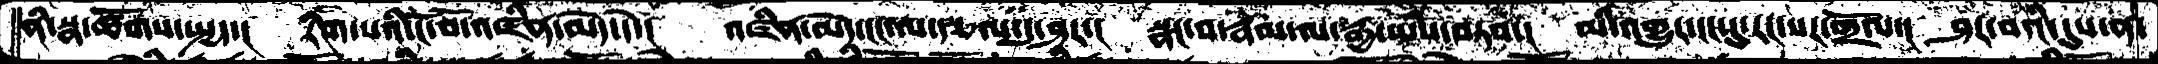ནི་སྣ་ཚོགས་སྤྱད་།  རིག་པའི་ངོ་བོ་འཛིན་མེད་དེ་།  འཛིན་མེད་ངང་ལ་རྩལ་དུ་ཤར་།  སྣང་བ་རྣམ་ལ་རྒྱ་ཡིས་བཏབ་།  མི་འགྱུར་ངང་དུ་རང་སར་གྲོལ་།  ཤར་བའི་དུས་ན་
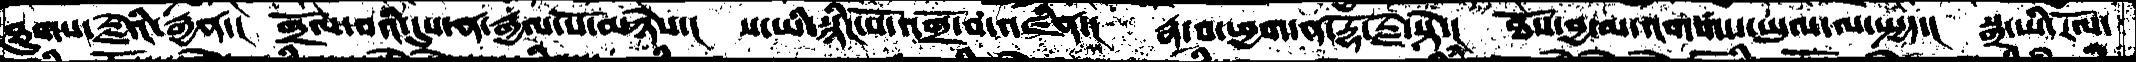ཐུགས་རྗེའི་རྒྱན་།  གྲོལ་བའི་དུས་ན་རྒྱལ་པོ་མཉེས་།  ས་ཡི་སྙིང་བོ་འགྲོ་བ་འཛིན་།  རྣ་བ་ཕྱག་ན་རྡོ་རྗེ་སྟེ་།  ཐོས་བྱ་མ་འགགས་ཡུལ་ལ་སྤྱད་།  སྒྲ་ཡི་རོལ་
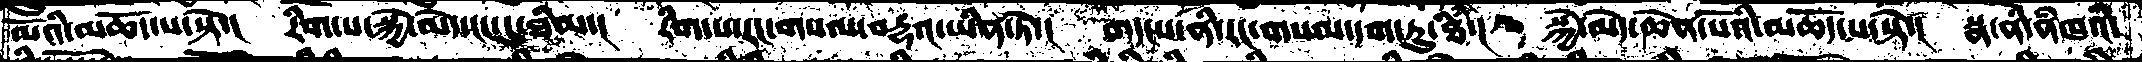མོའི་མཆོད་པ་སྟེ་།  རིག་པ་སྐྱེ་མེད་ངང་དུ་ཐིམ་།  རིག་པ་རང་གསལ་བདྷའ་ཡིན་ཏེ་།  གདངས་ནི་རང་གསལ་དག་ཏུ་ཐིཾ་།   སྐྱེ་མེད་ཆེན་པོའི་མཆོད་པ་སྟེ་།  སྣ་ནི་ནཾཁའི་
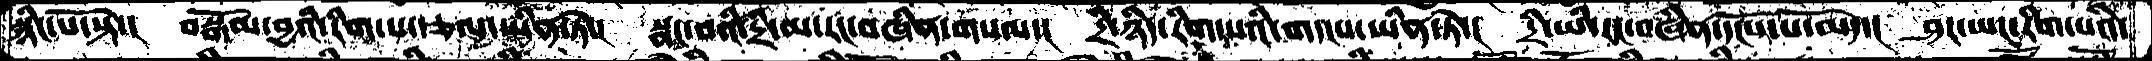སྙིང་པོ་སྟེ་།   བསྒོམ་བྱའི་རིག་པ་རྩལ་ཡིན་ཏེ་།   སྣང་བའི་དྲི་མ་རང་བཞིན་གསལ་།  དྲི་ཉིད་རིག་པའི་གདངས་ཡིན་ཏེ་།  དྲི་ཡི་རང་བཞིན་དངོས་པོ་མེད་།  ཤར་ཡང་རིག་པའི་
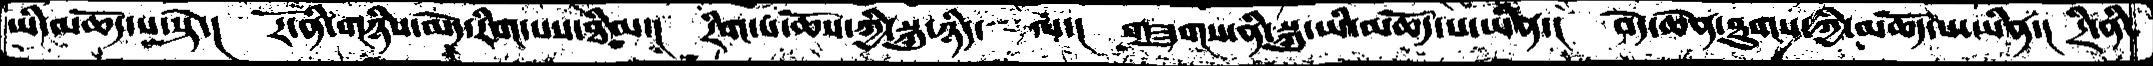ཡི་མཆོད་པ་སྟེ་།   རོ་ནི་གཉིས་མེད་རིག་པས་ཐིམ་།  རིག་པ་ཆོས་ཀྱི་སྐུ་ཉིད་ལ་།  གཟུགས་ནི་སྐུ་ཡི་མཆོད་པ་ཡིན་།  བདེ་ཆེན་ཐུགས་ཀྱི་མཆོད་པ་ཡིན་།  དྲི་ནི་
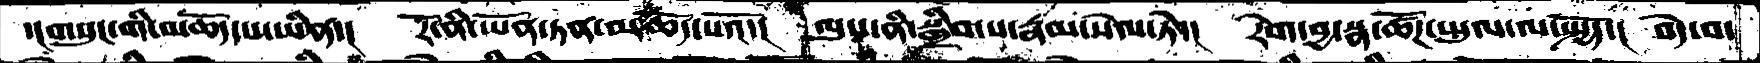་།གསུང་གི་མཆོད་པ་ཡིན་།  རོ་ནི་ཡོན་ཏན་མཆོད་པའོ་།  ལུས་ནི་སྒྲིབ་པ་རྣམ་སེལ་ཏེ་།  རེག་བྱ་སྣ་ཚོགས་ཡུལ་ལ་སྤྱོད་།  བདེ་བ་
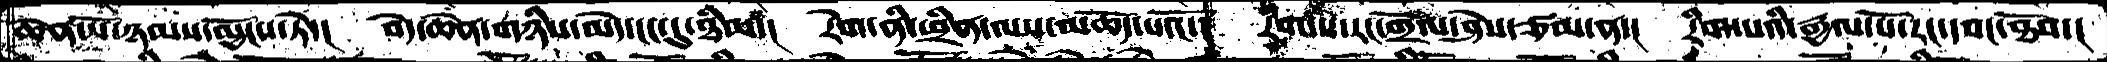ཆེན་པོ་ཉམས་མྱོངས་ཏེ་།  བདེ་ཆེན་གཉིས་མེད་ངང་དུ་ཐིམ་།  རེག་ནི་ཕྲིན་ལས་མཆོད་པའོ་།  རིག་པ་རང་གྲོལ་ཤེས་ཙམ་ན་།  རིག་པའི་རྒྱལ་པོ་རང་དབང་ཐོབ་།
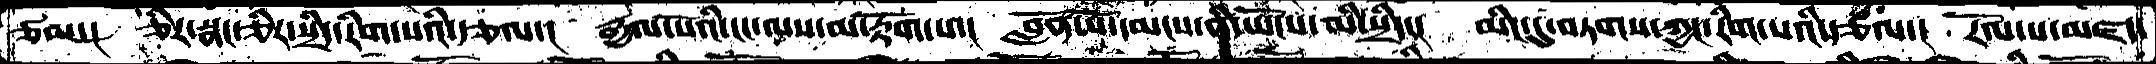ཙམ་།   ཅིར་སྣང་ཅིར་སྲིད་རིག་པའི་རྩལ་།  རྒྱལ་པོའི་ངང་ལས་མ་རྟོག་པ་།  བློན་པོ་དམངས་ནི་ཡོངས་མི་སྲིད་།  མིང་དུ་བཏགས་ཀྱང་རིག་པའི་རྩལ་།  རོལ་པ་མཛད་
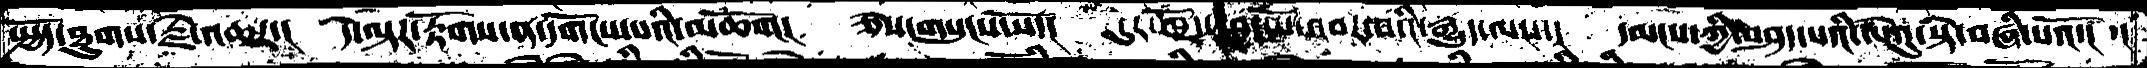སྤྱོད་ཐུགས་རྗེ་འཆར་།  དེ་ལྟར་རྟོགས་ན་དགོངས་པའི་མཆོག།  ཅེས་གསུངས་སོ་།  དུར་ཁྲོད་བྱད་པོ་འབར་བའི་རྒྱུད་ལས་། དམངས་ཀྱི་བཤད་པའི་ལེའུ་སྟེ་བཞི་པའོ་།  ་།
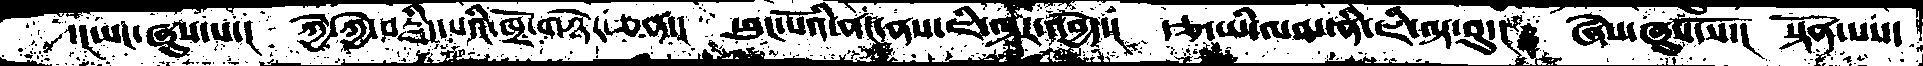་།ཡང་ཞུས་པ་།  ཀྱེ་ཀྱེ་བརྗིད་པའི་ཁྲོ་གཉེར་ཅན་།  ཕུང་པོའི་ནང་ནས་ཇི་ལྟར་འབྱེད་།  རྩ་ཡི་ལམ་ནི་ཇི་ལྟ་བུ་།  ཞེས་ཞུས་སོ་།  སྟོན་པས་
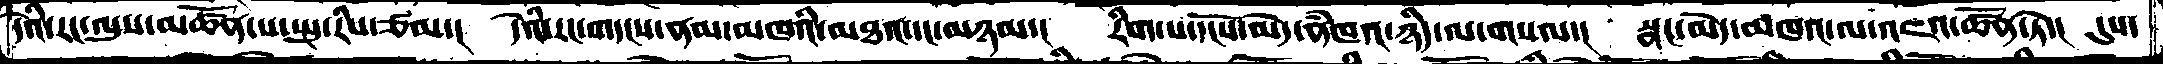དེའི་རང་ལུས་མཚོན་པ་སྤུ་རིས་ཙམ་།  དེའི་རང་གདངས་ནམ་མཁའི་མཐའ་དང་མཉམ་།  རིག་པ་དངོས་མེད་ནཾཁའ་ཉིད་ལ་གསལ་།  སྣང་མེད་མཁའ་ལ་འཇའ་ཚོན་ཏེ་།  དུས་
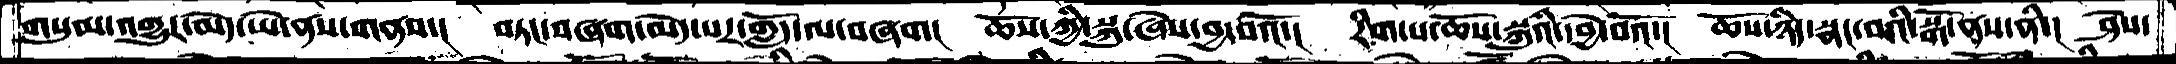གསུམ་འགྱུར་མེད་ཡེ་ནས་གནས་།  བཏང་བཞག་མེད་པར་གློད་ལ་བཞག།  ཆོས་ཀྱི་སྐུ་ཞེས་བྱ་བའོ་།  རིག་པ་ཆོས་སྐུའི་དབྱེ་བའོ་།  ཆོས་ཉིད་སྣང་བའི་སྒོ་ནས་ནི་།  ཤེས་
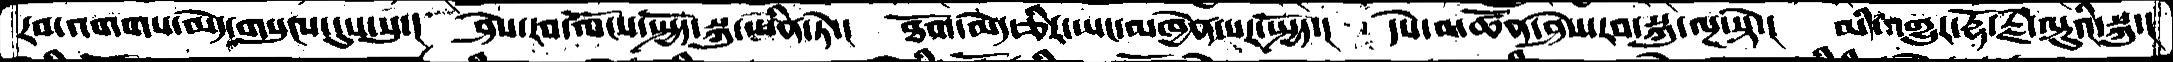རབ་འགགས་མེད་གསུངས་དུས་སུ་།   ཤེས་རབ་ལོངས་སྤྱོད་སྐུ་ཡིན་ཏེ་།  ཐོག་མེད་ཅིར་ཡང་མཁྱེན་པར་སྤྱོད་།  དཔེ་མཚོན་ཤེས་རབ་སྐུ་ལྔ་སྟེ་།  མི་འགྱུར་རྡོརྗེ་ལྟུའི་སྐུ་།
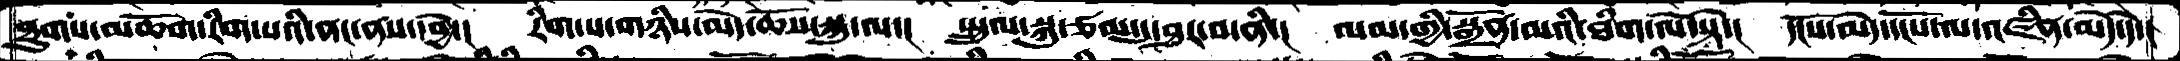ཐུགས་མཆོག་རིག་པའི་ནང་ནས་དབྱེ་།   རིག་པ་གཉིས་མེད་ཆོས་སྐུ་ལ་།  སྤྲུལ་སྐུ་ཙམ་དུ་ཤར་བ་ནི་།  ལམ་གྱི་སྒྲོན་མའི་ཐིག་ལེ་སྟེ་།  དངོས་མེད་དངོས་ལ་འཛིན་མེད་དེ་།
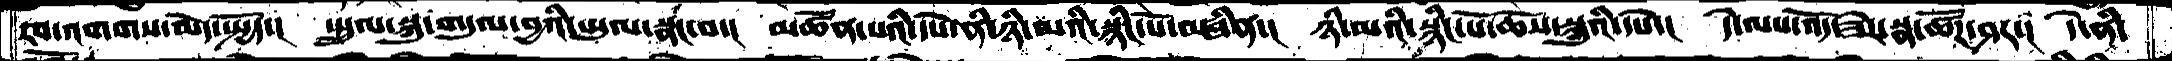རབ་འགགས་མེད་སྤྱོད་།  སྤྲུལ་སྐུ་གདུལ་བྱའི་ཡུལ་སྣང་བ་།  མཚོན་པའི་དཔེ་ནི་ཉི་མའི་སྙིང་པོ་བཞིན་།  ཉི་མའི་སྙིང་པོ་ཆོས་སྐུའི་དཔེ་།  དེ་ལས་འོད་ཟེར་སྣ་ཚོཌ་ཤར་།  དེ་ནི་
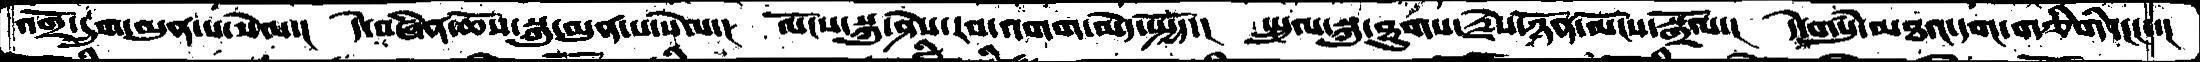འགྲོ་དྲུག་མུན་པ་སེལ་།   དེ་བཞིན་ཆོས་སྐུ་མུན་པ་སེལ་།   ལོངས་སྐུ་ཤེས་རབ་འགག་མེད་སྤྱོད་།  སྤྲུལ་སྐུ་ཐུགས་རྗེས་ཉོན་མོངས་སྒྲོལ་།  དེ་གསུཾ་མཐའ་དག་གཅིགི་ངང་་།
